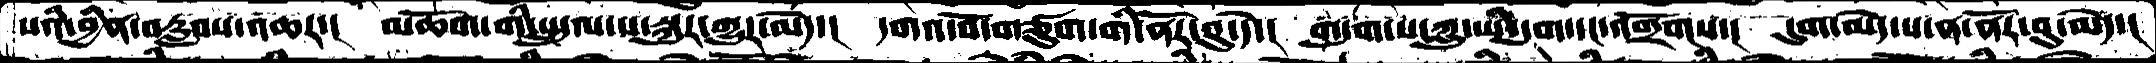པའི་བྱིན་བརླབས་འཆར་།  མཆོག་གི་སྤྲུལ་པ་སྐུར་གྱུར་མེད་།  དགའ་བོ་གཙུག་གི་ནོར་བུ་དེ་།  གདུག་པ་ཀླུ་ཡི་དུག་དང་འགྲོགས་།  དུག་མེད་པ་ན་ནོར་བུ་མེད་།
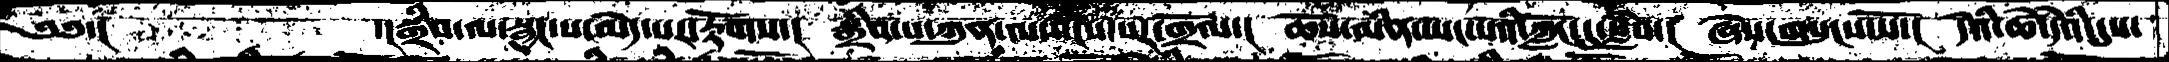༄༅་།      ་།སྒྲིབ་ལ་སྦྱང་པ་་མེད་པར་རྟོགས་།  སྒྲིབ་པ་ཀུན་ལ་སངས་པར་གྲོལ་།   ཆོས་མིན་ཡང་པའི་ཀློང་དུ་སློབ་།  ཞེས་གསུངས་སོ་།  དེའི་ཚེ་དེའི་དུས་
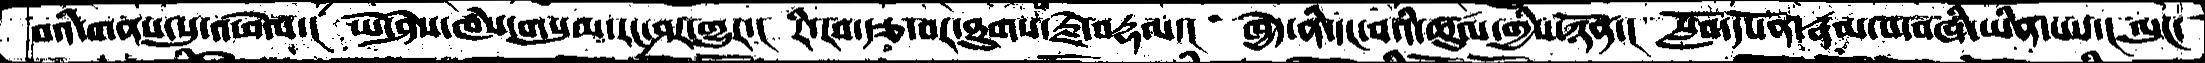བའི་གནས་སུ་འཕེལ་།  ཡེ་ཤེས་ཁཾས་གསུམ་རང་ཤར་གྱུར་།  རི་རབ་རྩ་བར་ཐུགས་རྗེ་བརྡལ་།  ཁྱེད་ནི་དང་བའི་ཚུལ་གྱིས་ཉོན་།  སློབ་དཔོན་རྣམ་པ་བཞི་ཡིན་པས་།  ལུང་
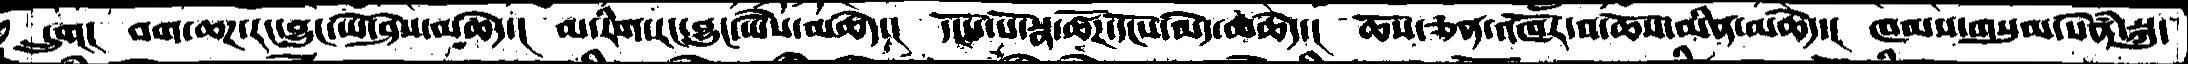དྲུག།  བག་ཆཌ་རང་བྱུང་ཡེ་ཤེས་མཆེད་།  མ་རིག་རང་བྱུང་ཡཻས་མཆེད་།  དངོས་པོ་སྣ་ཚོཌ་དངོས་མེད་མཆེད་།  ཆོས་ཅན་འཁོར་བ་ཆོས་མིན་མཆེད་།  ཁམས་གསུམ་སེནཾ་སྐུ་
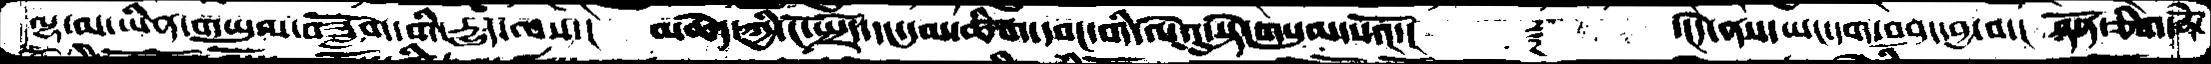ལྷ་མ་ཡིན་གཡུལ་བཟློག་གི་དྱུད་ལས་།  མཆེད་ཀྱི་ངོ་སྤྲོད་དང་དམ་ཚིག་དབང་གི་ལེའུ་སྟེ་གསུམ་པའོ་།    ༈   ་།དེ་ནས་ཡང་དག་བཤད་བྱ་བ་།  ཉོན་ཅིག་རྡོེ་
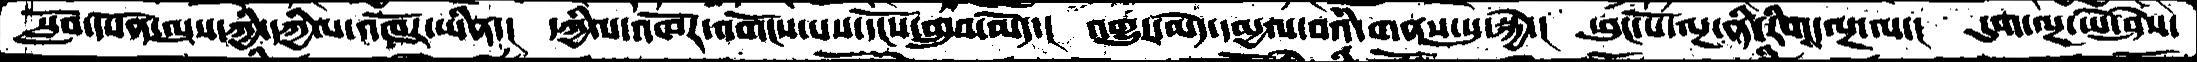སློབ་དཔོན་ལུས་ཀྱི་དཀྱིལ་འཁོར་ཡིན་།  དཀྱིལ་འཁོར་འགོངས་པས་དངོས་གྲུབ་མེད་།  འགྱུར་མེད་དམྱལ་བའི་གནས་སུ་སྐྱེ་།  ཕུང་པོ་ལྔ་ནི་རིག་ལྔ་ལ་།  དུག་ལྔ་ཡེ་ཤེས་
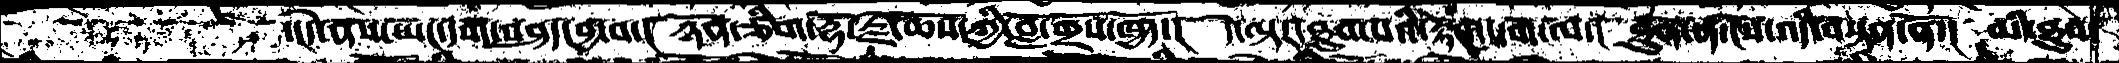་།དེ་ནས་ཡང་དག་བཤད་བྱ་བ་།  ཉོན་ཅིག་རྡོ་རྗེ་ཆོས་ཀྱི་བློ་གྲོས་ཁྱོད་།  དེ་ལྟར་ཐུབ་པའི་རྟོག་དགོང་ལ་།  ཐུབ་ན་ངེས་འདི་བསྟན་ནོ་།  མི་ཐུབ་
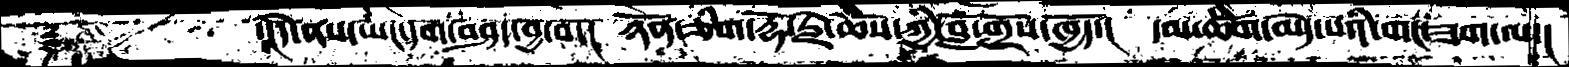༈     ་།དེ་ནས་ཡང་དག་བཤད་བྱ་བ་། ཉོན་ཅིག་རྡོ་རྗེ་ཆོས་ཀྱི་བློ་གྲོས་ཁྱོད་། དམ་ཚིག་མེད་པའི་གང་ཟག་ལ་།
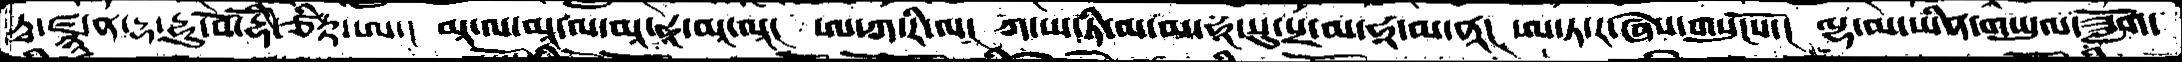ཏྭ་ཛྙཱ་ན་དྷ་དྷུ་བོ་དྷི་ཙིཏྟ་ཨ་།  མཱ་ལ་མཱ་ལ་མཱ་ཧཱ་མཱ་ལཱ།  ཨ་ཀ་རི་ལ།  ཀ་ཡ་ཏི་མ་མ་ཧཱ་སུ་པྲ་མ་ཧཱ་མ་ནཱ།  ཨ་ཏ་ར་ཞེས་གསུངསོ་།  ལྷ་མ་ཡིན་གཡུལ་ཟློག་
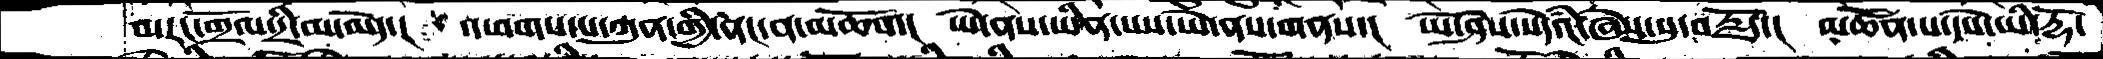བ་རང་གྲོལ་དྲི་མ་མེད་།  འཕགས་པ་ཀུན་གྱི་ནང་ན་མཆོག།  ཡེ་ནས་ཡིན་པས་ཡེ་ནས་གནས་།  ཡེ་ཤེས་སེཾདའ་ཞེས་སུ་བརྗདོ་།  མཚོན་པ་དཔེ་ཡི་རྡོ་
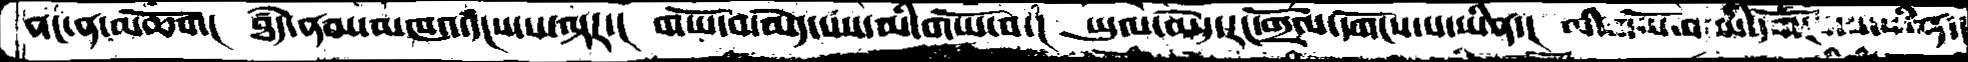ནང་ན་མཆོག།  ཐཾད་ནམ་མཁའ་དངས་པ་ལྟར་།  གཡོ་བ་མེད་པས་མི་གཡོ་བ་།  ཡུལ་མེད་རང་གྲོལ་དགོངས་པ་ཡིན་།  མི་གཡོ་བ་མི་དགོངས་པ་ཡིན་།
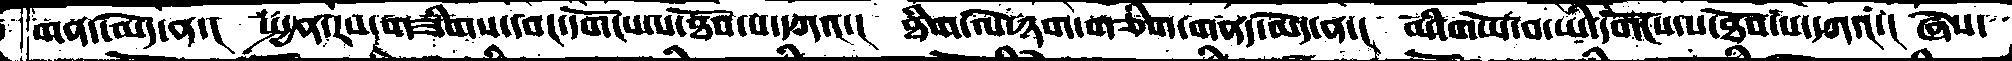གནད་མེད་ན་།  སྤྱན་རས་གཟིགས་དབང་དགོངས་པ་ཐོབ་པ་དཀའ་།  ཐིག་ལེ་ཉག་གཅིག་གནད་མེད་ན་།  མི་གཡོ་བ་ཡི་དགོངས་པ་ཐོབ་པ་དཀའ་།  ཞེས་
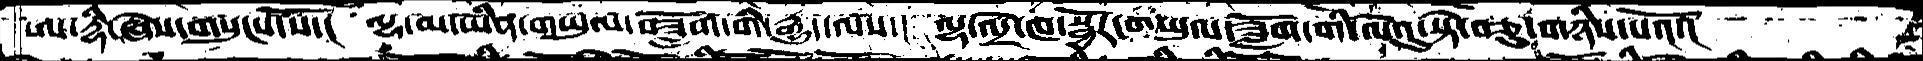ཨ་དྷི་ཞེས་གསུངས་སོ་།  ལྷ་མ་ཡིན་གཡུལ་བཟློག་གི་རྒྱུད་ལས་།   ལྷ་འདྲེ་ཁ་སྦྱོར་གཡུལ་ཟློག་གི་ལེའུ་སྟེ་བཅུ་གཉིས་པའོ་།
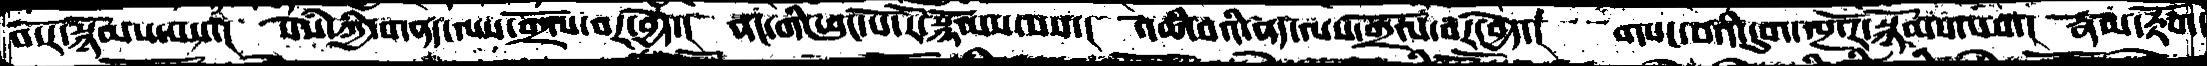བ་རོ་སྙོམས་པས་།  སེསཾ་ཀྱི་གནད་ལས་གྲོལ་བར་བྱེད་།  ནང་གི་ཕུང་པོ་རོ་སྙོམས་པས་།  འཆི་བའི་ནད་ལས་གྲོལ་བར་བྱེད་།  གསང་བའི་དུག་ལྔ་རོ་སྙོམས་པས་།  རྣམ་རྟོག་
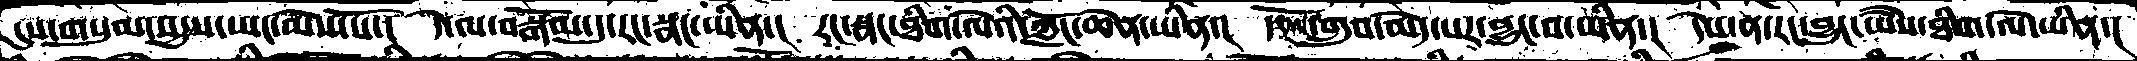དུས་གསུམ་སདྱས་ཡང་མེས་སོ་།  དེ་ལ་བསྒོམ་དུ་རང་སྣང་ཡིན་།  རང་སྣང་ཐིག་ལེའི་ཀློང་ཆེན་ཡིན་།  རྩོལ་གྲུབ་མེད་པར་བྱུང་བ་ཡིན་།  དེས་ན་རང་བྱུང་ཡཻས་ཐིགལེ་ཡིན་།
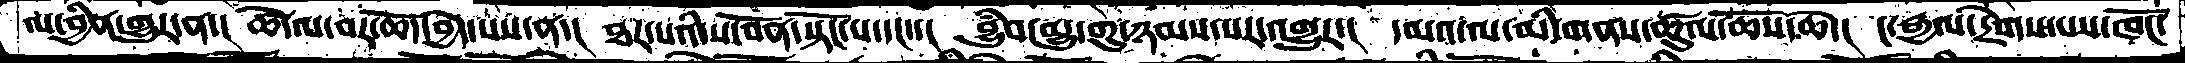ལ་བྱིན་གྱུར་ན་།   ཚེ་ལ་བར་ཆོད་བྱེད་པས་ན་།  ཐར་པའི་ས་བོན་སྟོང་པ་དང་།  བྱུཾབ་མྱུ་གུ་ཉམས་པར་འགྱུར་།  དམའ་ལ་མི་གནས་ཚུལ་ཆོས་ཆེ་།  ང་རྒྱལ་དྲེགས་པས་ཁོང་
